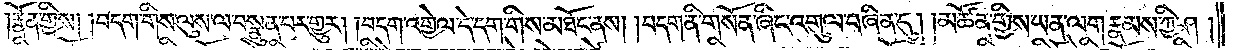རྣོན་གྱིས། །བདག་གིས་ལུས་ལ་བསྣུན་པར་གྱུར། །བདག་འགྱེལ་དེ་དག་གིས་མཐོང་ནས། །བདག་ནི་གསོན་ཞིང་འགུལ་བཞིན་དུ། །མཚོན་གྱིས་ཡན་ལག་རྣམས་ཀྱི་ཤ།
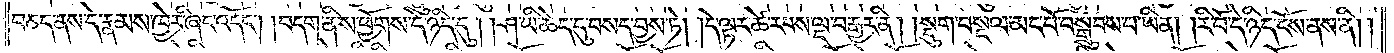བཅད་ནས་དེ་རྣམས་ཁྱེར་ཞིང་འདོང༌། །བདག་ནི་ས་ཕྱོགས་དེ་ཉིད་དུ། །ཤ་ཡི་ཆེད་དུ་བསད་བྱས་ཏེ། །དེ་ལྟར་ཚེ་རབས་ལྔ་བརྒྱར་ནི། །སྡུག་བསྔལ་མང་པོ་བསྒྲུབས་པ་ཡིན། །རི་བོ་དེ་ཉིད་ངོས་ནས་ནི། །
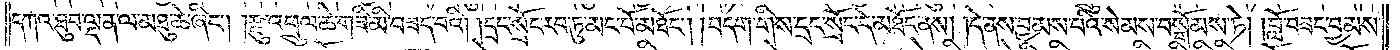དཀའ་ཐུབ་ལྡན་ལ་མཐུ་ཆེ་ཞིང༌། །རྫུ་འཕྲུལ་ཆེ་གཟི་མི་བཟད་པའི། །དྲང་སྲོང་རབ་ཏུ་མང་པོ་མཐོང༌། །བདག་གིས་དྲང་སྲོང་དེ་མཐོང་ནས། །དེ་ནས་བྱམས་པའི་སེམས་བསྒོམས་ཏེ། །བློ་བཟང་བྱམས་
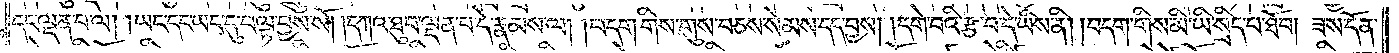དང་ལྡན་པ་ལ། །ཡང་དང་ཡང་དུ་བལྟ་བྱས་སོ། །དཀའ་ཐུབ་ལྡན་པ་དེ་རྣམས་ལ། །བདག་གིས་གུས་བཅས་སེམས་དད་བྱས། །དགེ་བའི་རྩ་བ་དེ་ཡིས་ནི། །བདག་གིས་མི་ཡི་སྲིད་པ་ཐོབ། ཟས་དོན་
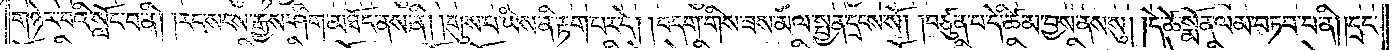གཉེར་བའི་སློང་བ་ནི། །རང་སངས་རྒྱས་ཤིག་མཐོང་ནས་ནི། །གུས་པ་ཡིས་ནི་རྟག་པར་དེ། །བདག་གིས་ཟས་མལ་སྤྱན་དྲངས་སོ། །བཙུན་པ་དེ་ཚིམ་བྱས་ནས་སུ། །དེ་ཚེ་སྨོན་ལམ་བཏབ་པ་ནི། །དྲང་
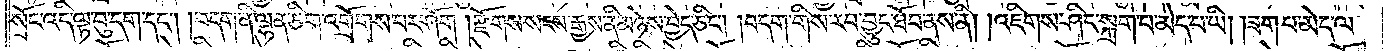སྲོང་འདི་ལྟ་བུ་དག་དང༌། །བདག་ནི་ལྷན་ཅིག་འགྲོགས་པར་ཤོག །རྫོགས་སངས་རྒྱས་ནི་མཉེས་བྱེད་ཅིང༌། །བདག་གིས་རབ་བྱུང་ཐོབ་ནས་ནི། །འཇིགས་ཤིང་སྐྲག་པ་མེད་པ་ཡི། །ཟག་པ་མེད་ལ་
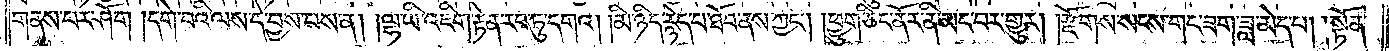གནས་པར་ཤོག །དགེ་བའི་ལས་དེ་བྱས་པས་ན། །ལྷ་ཡི་འཇིག་རྟེན་རབ་ཏུ་དགའ། །མི་ཉིད་རྙེད་པ་ཐོབ་ནས་ཀྱང༌། །ཕྱུག་ཅིང་ནོར་ནི་མང་བར་གྱུར། །རྫོགས་སངས་གང་ཟག་ཟླ་མེད་པ། །སྟོན་
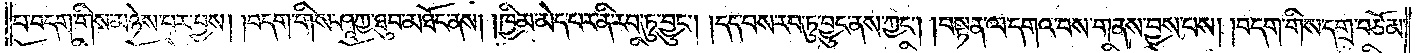པ་བདག་གིས་མཉེས་པར་བྱས། །བདག་གིས་ཤཱཀྱ་ཐུབ་མཐོང་ནས། །ཁྱིམ་མེད་པར་ནི་རབ་ཏུ་བྱུང༌། །དད་པས་རབ་ཏུ་བྱུང་ནས་ཀྱང༌། །བསྟན་ལ་དགའ་བས་གནས་བྱས་པས། །བདག་གིས་དགྲ་བཅོམ་
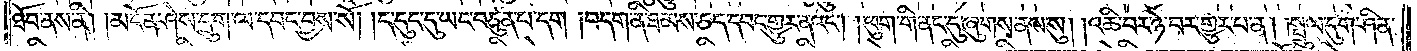ཐོབ་ནས་ནི། །མངོན་ཤེས་དྲུག་ལ་དབང་བྱས་སོ། །ད་དུང་དུ་ཡང་བཙུན་པ་དག །བདག་ནི་ཐམས་ཅད་དབང་གྱུར་ནའང༌། །ཕུག་གི་ནང་དུ་ཞུགས་ནས་སུ། །འཆི་བར་ཉེ་བར་གྱུར་པ་ན། །སྦྲུལ་དུག་ཤིན་
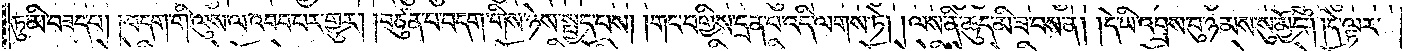ཏུ་མི་བཟད་པ། །བདག་གི་ལུས་ལ་འབབ་པར་གྱུར། །བཙུན་པ་བདག་གིས་ཉེས་སྤྱད་པས། །གང་བགྱིས་དྲན་པ་འདི་ལགས་ཏེ། །ལས་ནི་ཆུད་མི་ཟ་བས་ན། །དེ་ཡི་འབྲས་བུ་ཉམས་སུ་མྱོང༌། །དེ་ལྟར་
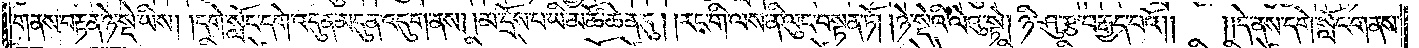གནས་བརྟན་ཉེ་སྡེ་ཡིས། །དགེ་སློང་དགེ་འདུན་མདུན་འདུག་ནས། །མ་དྲོས་པ་ཡི་མཚོ་ཆེན་དུ། །རང་གི་ལས་ནི་ལུང་བསྟན་ཏོ། །ཉེ་དེའི་ལེའུ་སྟེ། ཉི་ཤུ་རྩ་བརྒྱད་པའོ༎     ༎དེ་ནས་དགེ་སློང་གནས་
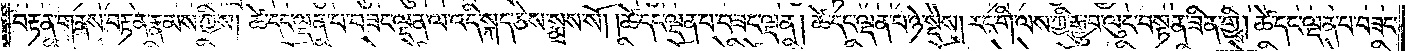བརྟན་གནས་བརྟན་རྣམས་ཀྱིས། ཚེ་དང་ལྡན་པ་བཟང་ལྡན་ལ་འདི་སྐད་ཅེས་སྨྲས་སོ། །ཚེ་དང་ལྡན་པ་བཟང་ལྡན། ཚེ་དང་ལྡན་པ་ཉེ་སྡེས། རང་གི་ལས་ཀྱི་རྒྱུ་བ་ལུང་བསྟན་ཟིན་གྱིས། ཚེ་དང་ལྡན་པ་བཟང་
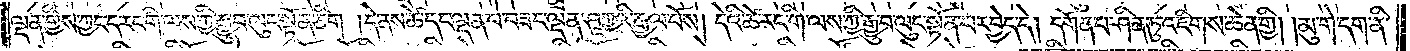ལྡན་གྱིས་ཀྱང་ད་རང་གི་ལས་ཀྱི་རྒྱུ་བ་ལུང་སྟོན་ཅིག །དེ་ནས་ཚེ་དང་ལྡན་པ་བཟང་ལྡན་ཤཱཀྱའི་རྒྱལ་པོས། དེའི་ཚེ་རང་གི་ལས་ཀྱི་རྒྱུ་བ་ལུང་སྟོན་པར་བྱེད་དེ། དགོན་པ་ཤིན་ཏུ་འཇིགས་ཆེན་གྱི། །མུ་གེ་དག་ནི་
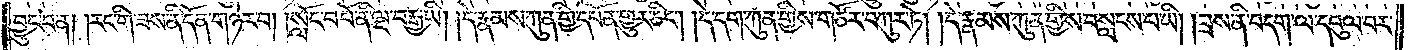བྱུང་བ་ན། །རང་གི་ཟས་ནི་དོན་གཉེར་བ། །སློང་བ་པོ་ནི་ལྔ་བརྒྱ་ཡི། །དེ་རྣམས་ཀུན་གྱི་དཔོན་གྱུར་ཅིང༌། །དེ་དག་ཀུན་གྱིས་གཙོར་བཀུར་ཏེ། །དེ་རྣམས་ཀུན་གྱིས་བསླངས་པ་ཡི། །ཟས་ནི་བདག་ལ་དབུལ་བར་
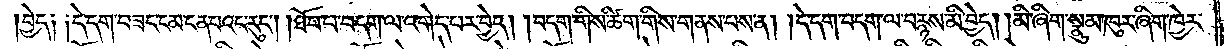བྱེད༑ ༑དེ་དག་བཟང་ངམ་ངན་པའང་རུང༌། །ཐོབ་པ་བདག་ལ་འགེད་པར་བྱེད། །བདག་གིས་ཚིག་གིས་གནས་པས་ན། །དེ་དག་བདག་ལ་བརྙས་མི་བྱེད། །མི་ཞིག་སྣུམ་ཁུར་ཞིག་ཁྱེར་
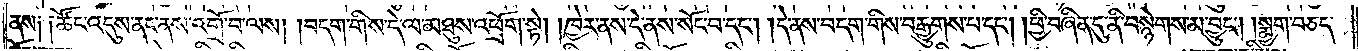ནས༑ ༑ཚོང་འདུས་ནང་ནས་འགྲོ་བ་ལས། །བདག་གིས་དེ་ལ་མཐུས་འཕྲོག་སྟེ། །ཁྱེར་ནས་དེ་ནས་སོང་བ་དང༌། །དེ་ནས་བདག་གིས་བརྒྱུགས་པ་དང༌། །ཕྱི་བཞིན་དུ་ནི་བསྙེགས་མ་བྱུང༌། །སྨྱག་བཅད་
